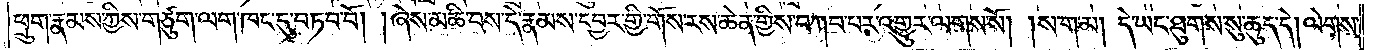ཕྲུག་རྣམས་ཀྱིས་གཙུག་ལག་ཁང་དུ་བཏབ་པོ། །ཞེས་མཆི་བས་དེ་རྣམས་དབྱར་གྱི་གོས་རས་ཆེན་གྱིས་བཀབ་པར་འགྱུར་ལགས་སོ། །ས་ག་མ། དེ་ཡང་ཐུགས་སུ་ཆུད་དེ། ལེགས་
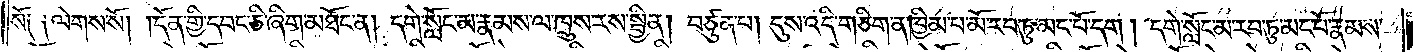སོ། །ལེགས་སོ། །དོན་གྱི་དབང་ཅི་ཞིག་མཐོང་ན། དགེ་སློང་མ་རྣམས་ལ་ཁྲུས་རས་སྦྱིན། བཙུན་པ། དུས་འདི་གཅིག་ན་ཁྱིམ་པ་མོ་རབ་ཏུ་མང་པོ་དག །དགེ་སློང་མ་རབ་ཏུ་མང་པོ་རྣམས་
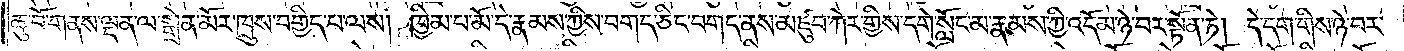ཆུ་བོ་གནས་ལྡན་ལ་སྒྲེན་མོར་ཁྲུས་བགྱིད་པ་ལས། ཁྱིམ་པ་མོ་དེ་རྣམས་ཀྱིས་བགད་ཅིང་བགད་ནས་མཛུབ་ཀེར་གྱིས་དགེ་སློང་མ་རྣམས་ཀྱི་འདོམ་ཉེ་བར་སྟོན་ཏེ། དེ་དག་གིས་ཉེ་བར་
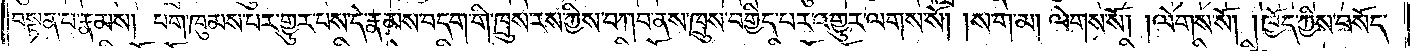བསྟན་པ་རྣམས། པག་ཁུམས་པར་གྱུར་པས་དེ་རྣམས་བདག་གི་ཁྲུས་རས་ཀྱིས་བཀབ་ནས་ཁྲུས་བགྱིད་པར་འགྱུར་ལགས་སོ། །ས་ག་མ། ལེགས་སོ། །ལེགས་སོ། །ཁྱོད་ཀྱིས་བསོད་
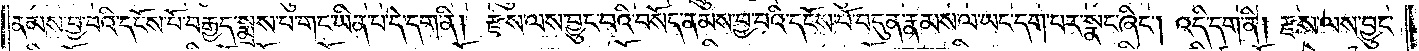ནམས་བྱ་བའི་དངོས་པོ་བརྒྱད་སྨྲས་པ་གང་ཡིན་པ་དེ་དག་ནི། རྫས་ལས་བྱུང་བའི་བསོད་ནམས་བྱ་བའི་དངོས་པོ་བདུན་རྣམས་ལ་ཡང་དག་པར་སྣང་ཞིང༌། འདི་དག་ནི། རྫས་ལས་བྱུང་
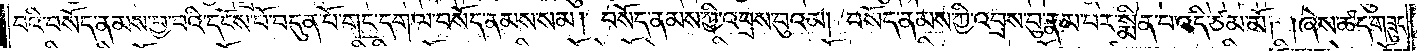བའི་བསོད་ནམས་བྱ་བའི་དངོས་པོ་བདུན་པོ་གང་དག་ལ་བསོད་ནམས་སམ། བསོད་ནམས་ཀྱི་འབྲས་བུའམ། བསོད་ནམས་ཀྱི་འབྲས་བུ་རྣམ་པར་སྨིན་པ་འདི་ཙམ་མོ། །ཞེས་ཚད་གཟུང་
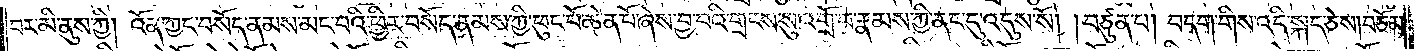བར་མི་ནུས་ཀྱི། འོན་ཀྱང་བསོད་ནམས་མང་བའི་ཕྱིར་བསོད་ནམས་ཀྱི་ཕུང་པོ་ཆེན་པོ་ཞེས་བྱ་བའི་གྲངས་སུ་འགྲོ་བ་རྣམས་ཀྱི་ནང་དུ་འདུས་སོ། །བཙུན་པ། བདག་གིས་འདི་སྐད་ཅེས། བཅོམ་
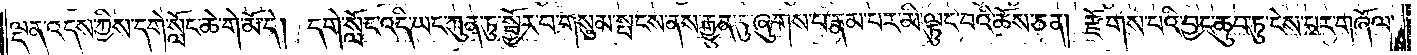ལྡན་འདས་ཀྱིས་དགེ་སློང་ཆེ་གེ་མོ་དེ། དགེ་སློང་འདི་ཡང་ཀུན་ཏུ་སྦྱོར་བ་གསུམ་སྤངས་ནས་རྒྱུན་དུ་ཞུགས་པ་རྣམ་པར་མི་ལྟུང་བའི་ཆོས་ཅན། རྫོགས་པའི་བྱང་ཆུབ་ཏུ་ངེས་པར་གཞོལ་
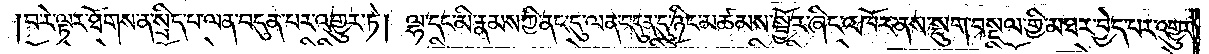པ་རེ་ལྟར་ཐོགས་ན་སྲིད་པ་ལན་བདུན་པར་འགྱུར་ཏེ། ལྷ་དང་མི་རྣམས་ཀྱི་ནང་དུ་ལན་བདུན་དུ་ཉིང་མཚམས་སྦྱོར་ཞིང་འཁོར་ནས་སྡུག་བསྔལ་གྱི་མཐར་བྱེད་པར་འགྱུར་
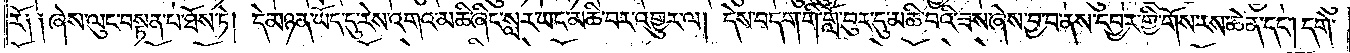རོ། །ཞེས་ལུང་བསྟན་པ་ཐོས་ཏེ། དེ་མཉན་ཡོད་དུ་རེས་འགའ་མཆི་ཞིང་སླར་ཡང་མཆི་བར་འགྱུར་ལ། དེས་བདག་གི་གློ་བུར་དུ་མཆི་བའི་ཟས་ཞེས་བྱ་བ་ནས་དབྱར་གྱི་གོས་རས་ཆེན་དང༌། དགེ་
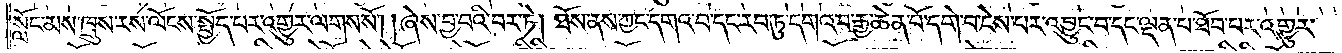སློང་མས་ཁྲུས་རས་ལོངས་སྤྱོད་པར་འགྱུར་ལགས་སོ། །ཞེས་བྱ་བའི་བར་ཏེ། ཐོས་ནས་ཀྱང་དགའ་བ་དང་རབ་ཏུ་དགའ་བ་རྒྱ་ཆེན་པོ་དགེ་བ་ངེས་པར་འབྱུང་བ་དང་ལྡན་པ་ཐོབ་པར་འགྱུར་
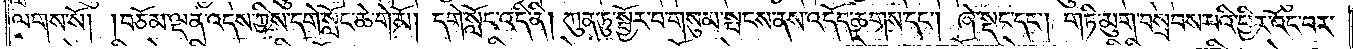ལགས་སོ། །བཅོམ་ལྡན་འདས་ཀྱིས་དགེ་སློང་ཆེ་གེ་མོ། དགེ་སློང་འདི་ནི། ཀུན་ཏུ་སྦྱོར་བ་གསུམ་སྤངས་ནས་འདོད་ཆགས་དང༌། ཞེ་སྡང་དང༌། གཏི་མུག་བསྲབས་པའི་ཕྱིར་འོང་བར་
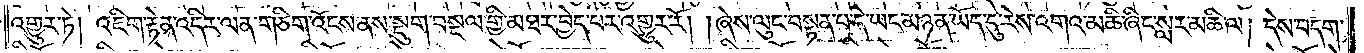འགྱུར་ཏེ། འཇིག་རྟེན་འདིར་ལན་གཅིག་འོངས་ནས་སྡུག་བསྔལ་གྱི་མཐར་བྱེད་པར་འགྱུར་རོ། །ཞེས་ལུང་བསྟན་པ་དེ་ཡང་མཉན་ཡོད་དུ་རེས་འགའ་མཆི་ཞིང་སླར་མཆི་ལ། དེས་བདག་
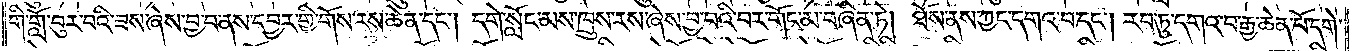གི་གློ་བུར་བའི་ཟས་ཞེས་བྱ་བ་ནས་དབྱར་གྱི་གོས་རས་ཆེན་དང༌། དགེ་སློང་མས་ཁྲུས་རས་ཞེས་བྱ་བའི་བར་གོང་མ་བཞིན་ཏེ། ཐོས་ནས་ཀྱང་དགའ་བ་དང༌། རབ་ཏུ་དགའ་བ་རྒྱ་ཆེན་པོ་དགེ་
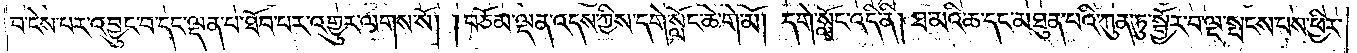བ་ངེས་པར་འབྱུང་བ་དང་ལྡན་པ་ཐོབ་པར་འགྱུར་ལགས་སོ། །བཅོམ་ལྡན་འདས་ཀྱིས་དགེ་སློང་ཆེ་གེ་མོ། དགེ་སློང་འདི་ནི། ཐ་མའི་ཆ་དང་མཐུན་པའི་ཀུན་ཏུ་སྦྱོར་བ་ལྔ་སྤངས་པས་ཕྱིར་
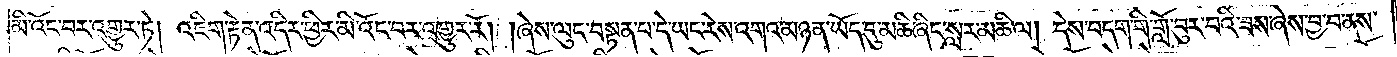མི་འོང་བར་འགྱུར་ཏེ། འཇིག་རྟེན་འདིར་ཕྱིར་མི་འོང་བར་འགྱུར་རོ། །ཞེས་ལུང་བསྟན་པ་དེ་ཡང་རེས་འགའ་མཉན་ཡོད་དུ་མཆི་ཞིང་སླར་མཆི་ལ། དེས་བདག་གི་གློ་བུར་པའི་ཟས་ཞེས་བྱ་བ་ནས་
